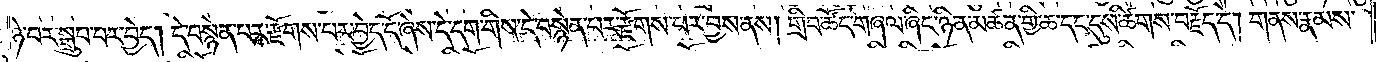ཉེ་བར་སྒྲུབ་པར་བྱེད། དེ་བསྙེན་པར་རྫོགས་པར་བྱེད་དོ་ཞེས་དེ་དག་གིས་དེ་བསྙེན་པར་རྫོགས་པར་བྱས་ནས། གྲིབ་ཚོང་གཞལ་ཞིང་ཉིན་མཚན་གྱི་ཆ་དང་དུས་ཚིགས་བརྗོད་དེ། གནས་རྣམས་
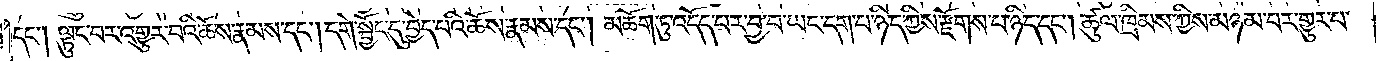དང༌། ལྟུང་བར་འགྱུར་བའི་ཆོས་རྣམས་དང༌། དགེ་སྦྱོང་དུ་བྱེད་པའི་ཆོས་རྣམས་དང༌། མཆོག་ཏུ་འདོད་པར་བྱ་བ་ཡང་དག་པ་ཉིད་ཀྱིས་རྫོགས་པ་ཉིད་དང༌། ཚུལ་ཁྲིམས་ཀྱིས་མཉམ་པར་གྱུར་པ་
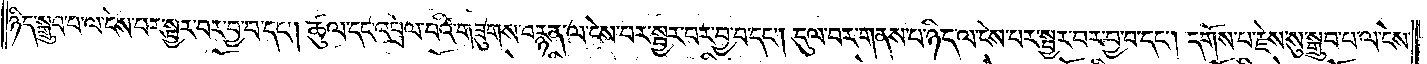ཉིད་སྒྲུབ་པ་ལ་ངེས་པར་སྦྱར་བར་བྱ་བ་དང༌། ཚུལ་དང་འབྲེལ་བའི་གཟུགས་བརྙན་ལ་ངེས་པར་སྦྱར་བར་བྱ་བ་དང༌། དུལ་བར་གནས་པ་ཉིད་ལ་ངེས་པར་སྦྱར་བར་བྱ་བ་དང༌། དགོས་པ་རྗེས་སུ་སྒྲུབ་པ་ལ་ངེས་
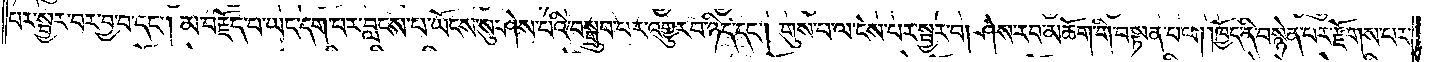པར་སྦྱར་བར་བྱ་བ་དང༌། མ་བརྗོད་པ་ཡང་དག་པར་བླངས་པ་ཡོངས་སུ་ཤེས་པའི་བསྒྲུབ་པར་འགྱུར་བ་ཉིད་དང༌། གུས་པ་ལ་ངེས་པར་སྦྱར་པ། ཤེས་རབ་མཆོག་གི་བསྟན་པ་ལ། །ཁྱོད་ནི་བསྙེན་པར་རྫོགས་པར་
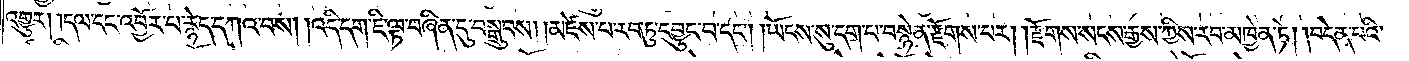འགྱུར། །དལ་དང་འབྱོར་པ་རྙེད་དཀའ་བས། །འདི་དག་ཇི་ལྟ་བཞིན་དུ་བསྒྲུབས། །མཛེས་པ་རབ་ཏུ་དབྱུང་བ་དང༌། །ཡོངས་སུ་དག་པ་བསྙེན་རྫོགས་པར། །རྫོགས་སངས་རྒྱས་ཀྱིས་རབ་མཁྱེན་ཏེ། །བདེན་པའི་
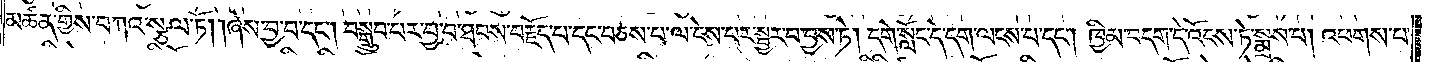མཆན་གྱིས་བཀའ་སྩལ་ཏོ། །ཞེས་བྱ་བ་དང༌། བསྒྲུབ་པར་བྱ་བ་ཐབས་བརྗོད་པ་དང་བཅས་པ་ལ་ངེས་པར་སྦྱར་བ་བྱས་ཏེ། དགེ་སློང་དེ་དག་ལངས་པ་དང༌། ཁྱིམ་བདག་དེ་འོངས་ཏེ་སྨྲས་པ། འཕགས་པ་
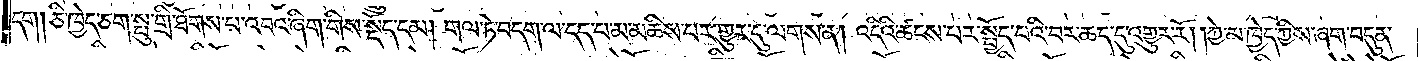དག། ཅི་ཁྱེད་ཅག་སྤུ་གྲི་ཐོགས་པ་འབའ་ཞིག་གིས་སྡོད་དམ། གལ་ཏེ་བདག་ལ་དད་པ་མ་མཆིས་པར་གྱུར་དུ་ལགས་ན། འདིའི་ཚངས་པར་སྤྱོད་པའི་བར་ཆད་དུ་འགྱུར་རོ། །ཀྱེ་མ་ཁྱེད་ཀྱིས་ཞག་བདུན་
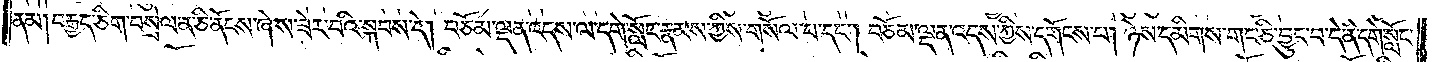ནམ། བརྒྱད་ཅིག་བསྲེལ་ན་ཅི་ནོངས་ཞེས་ཟེར་བའི་སྐབས་དེ། བཅོམ་ལྡན་འདས་ལ་དགེ་སློང་རྣམས་ཀྱིས་གསོལ་པ་དང༌། བཅོམ་ལྡན་འདས་ཀྱིས་དགོངས་པ། ཉེས་དམིགས་གང་ཅི་བྱུང་བ་དེ་ནི་དགེ་སློང་
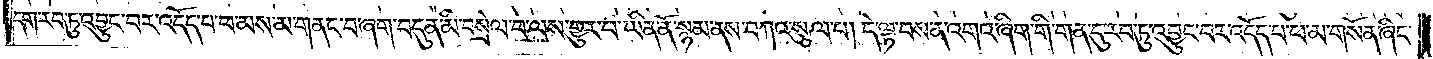དག་རབ་ཏུ་འབྱུང་བར་འདོད་པ་ཕ་མས་མ་གནང་བ་ཞག་བདུན་མི་བསྲེལ་བ་ལས་གྱུར་པ་ཡིན་ནོ་སྙམ་ནས་བཀའ་སྩལ་པ། དེ་ལྟ་བས་ན་འགའ་ཞིག་གི་གན་དུ་རབ་ཏུ་འབྱུང་བར་འདོད་པ་ཕ་མ་གསོན་ཞིང་
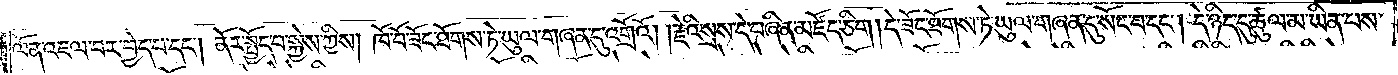ལོན་འཇལ་བར་བྱེད་པ་དང༌། ནོར་སྤྱོད་པ་སྐྱེས་ཀྱིས། ཁོ་བོ་ཟོང་ཐོགས་ཏེ་ཡུལ་གཞན་དུ་འགྲོའོ། །རྗེའི་སྲས་དེ་བཞིན་མཛོད་ཅིག། དེ་ཟོང་ཐོགས་ཏེ་ཡུལ་གཞན་དུ་སོང་བ་དང༌། དེ་ཉིད་དུ་ཚུལ་མ་ཡིན་པས་
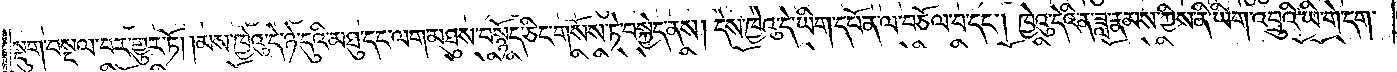སྡུག་བསྔལ་བར་གྱུར་ཏོ། །མས་ཁྱེའུ་དེ་ཉེ་དུའི་མཐུ་དང་ལག་མཐུས་བསྙོད་ཅིང་གསོས་ཏེ་བསྐྱེད་ནས། དེས་ཁྱེའུ་དེ་ཡིག་དཔོན་ལ་བཅོལ་བ་དང༌། ཁྱེའུ་དེའི་ན་ཟླ་རྣམས་ཀྱིས་ནི་ཡིག་འབྲུའི་ཡི་གེ་དག་
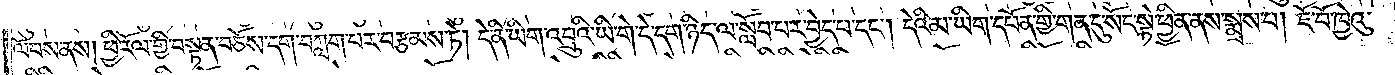ལོབས་ནས། ཕྱི་རོལ་གྱི་བསྟན་བཅོས་དག་བཀླག་པར་བརྩམས་ཏེ། དེ་ནི་ཡིག་འབྲུའི་ཡི་གེ་དེ་དག་ཉིད་ལ་སློབ་པར་བྱེད་པ་དང༌། དེའི་མ་ཡིག་དཔོན་གྱི་གན་དུ་སོང་སྟེ་ཕྱིན་ནས་སྨྲས་པ། ཇོ་བོ་ཁྱེའུ་
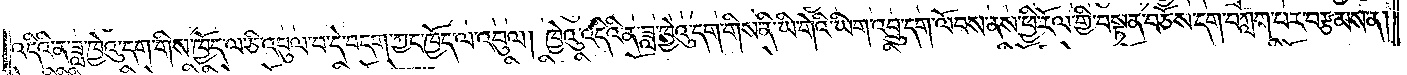འདིའི་ན་ཟླ་ཁྱེའུ་དག་གིས་ཁྱོད་ལ་ཅི་འབུལ་བ་དེ་བདག་ཀྱང་ཁྱོད་ལ་འབུལ། ཁྱེའུ་འདིའི་ན་ཟླ་ཁྱེའུ་དག་གིས་ནི་ཡི་གེའི་ཡིག་འབྲུ་དག་ལོབས་ནས་ཕྱི་རོལ་གྱི་བསྟན་བཅོས་དག་བཀླག་པར་བརྩམས་ན།
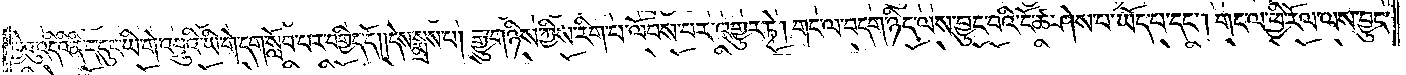ཁྱེའུ་འདིའི་ནི་ད་དུང་ཡི་གེ་འབྲུའི་ཡི་གེ་དག་སློབ་པར་བགྱིད་དོ། །དེས་སྨྲས་པ། རྒྱུ་གཉིས་ཀྱིས་རིག་པ་ལོབས་པར་འགྱུར་ཏེ། གང་ལ་བདག་ཉིད་ལས་བྱུང་བའི་ངོ་ཚ་ཤེས་པ་ཡོད་པ་དང༌། གང་ལ་ཕྱི་རོལ་ལས་བྱུང་
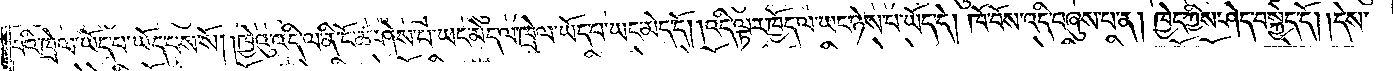བའི་ཁྲེལ་ཡོད་པ་ཡོད་པས་སོ། །ཁྱེའུ་འདི་ལ་ནི་ངོ་ཚ་ཤེས་པ་ཡང་མེད་ལ་ཁྲེལ་ཡོད་པ་ཡང་མེད་དོ། །འདི་ལྟར་ཁྱོད་ལ་ཡང་ཉེས་པ་ཡོད་དེ། ཁོ་བོས་འདི་བཞུས་པ་ན། ཁྱེད་ཀྱིས་ཤེད་བསྐྱེད་དོ། །དེས་
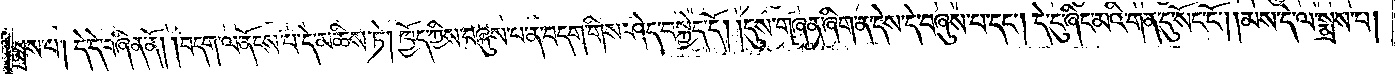སྨྲས་པ། དེ་དེ་བཞིན་ནོ། །བདག་ལ་ནོངས་པ་དེ་མཆིས་ཏེ། ཁྱོད་ཀྱིས་བཞུས་པ་ན་བདག་གིས་ཤེད་བསྐྱེད་དོ། །དུས་གཞན་ཞིག་ན་དེས་དེ་བཞུས་པ་དང༌། དེ་དུ་ཞིང་མའི་གན་དུ་སོང་ངོ༌། །མས་དེ་ལ་སྨྲས་པ།
